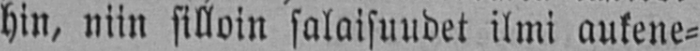hin, niin silloin salaisuudet ilmi aukene-
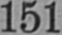151
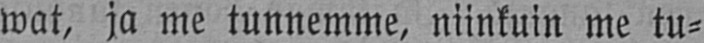wat, ja me tunnemme, niinkuin me tu-
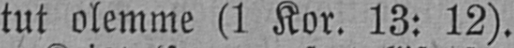tut olemme (1 Kor. 13: 12).
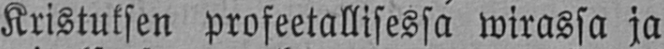Kristuksen profeetallisessa wirassa ja
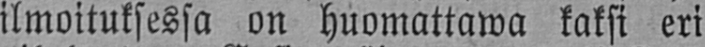ilmoituksessa on huomattawa kaksi eri
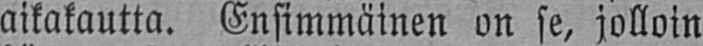aikakautta. Ensimmäinen on se, jolloin
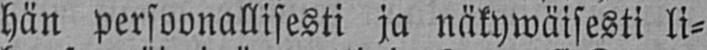hän persoonallisesti ja näkywäisesti li-
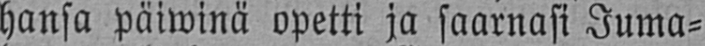hansa päiwinä opetti ja saarnasi Juma-
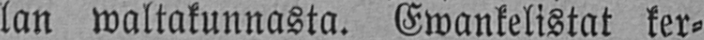lan waltakunnasta. Ewankelistat ker-
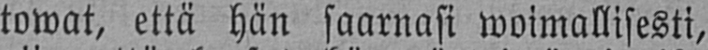towat, että hän saarnasi woimallisesti,
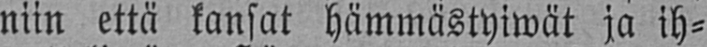niin että kansat hämmästyiwät ja ih-
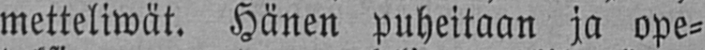metteliwät. Hänen puheitaan ja ope-
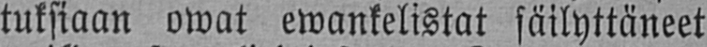tuksiaan owat ewankelistat säilyttäneet
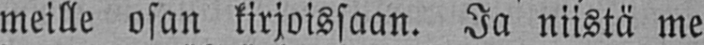meille osan kirjoissaan. Ja niistä me
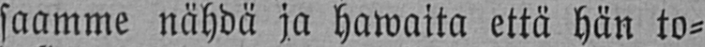saamme nähdä ja hawaita että hän to-
